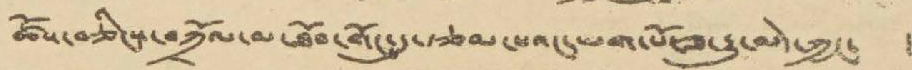ཚོས་བཅིངས་བཀྲོལ་མ་ཐོབ་གོང་དུ་རྩམ་པའང་ཡག་པོ་ཟ་རྒྱུ་མེད་ཀྱང་ །
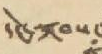དེང་སྐབས་
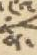གི་
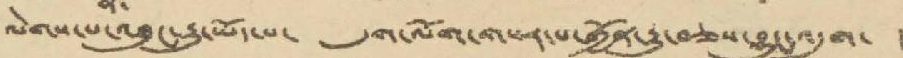ལེགས་པ་འཐུང་རྒྱུ་ཡོད་པ་ དུག་ལོག་གསར་པ་གྱོན་རྒྱུ་བཅས་བྱུང་འདུག་ །
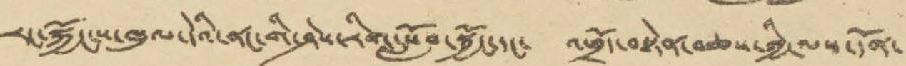རང་སྐྱོང་ས་ཁུལ་དེའི་ནང་གི་ཤེས་རིག་སློབ་སྦྱོང་དང་ འཕྲོད་བསྟེན་བཅས་ཀྱི་ལས་དོན་
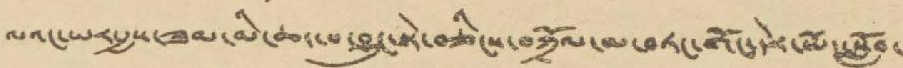ལའང་ཡར་རྒྱས་རྒྱས་ཟམ་མི་ཆ་པ་བྱུང་སྟེ་བཅིངས་བཀྲོལ་མ་བཏང་གོང་དེར་ཡོད་སློབ་
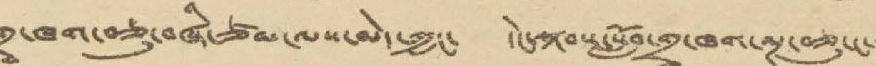གྲྭ་ཁག་བཅུ་བཞི་ཙམ་ལས་མེད་ཀྱང་ དེངས་སྐབས་སློབ་གྲྭ་ཁག་ལྔ་བཅུ་ང་་་
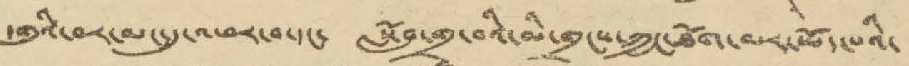དགུའི་བར་མང་དུ་འཕར་བ་དང་ སློབ་གྲྭ་བའི་མི་གྲངས་ཀྱང་ཐོག་མར་ཡོད་པའི་
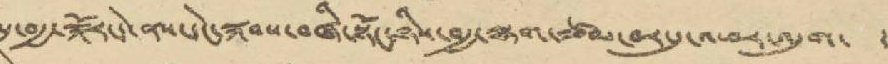ལྔ་བརྒྱ་སྐོར་དེ་ནས་དེང་སྐབས་བཞི་སྟོང་ཉིས་བརྒྱ་ལྷག་ཙམ་བར་དུ་འཕར་འདུག་ །
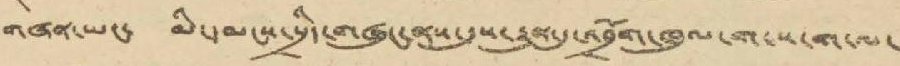གཞན་ཡང་ མི་དམངས་སྲིད་གཞུང་ནས་དུས་རྒྱུན་དུ་འབྲོག་ཁུལ་ག་ས་ག་ལ་
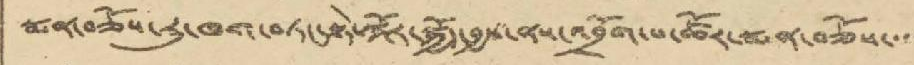སྨན་བཅོས་རུ་ཁག་བཏང་སྟེ་སྐོར་སྐྱོད་བྱས་ནས་འབྲོག་པ་ཚོར་སྨན་བཅོས་་་་
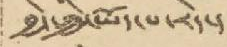བྱེད་ཀྱི་ཡོད་པ་རེད་།
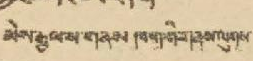མེས་རྒྱལ་ས་གནས་ཁག་གི་གནས་ལུགས་
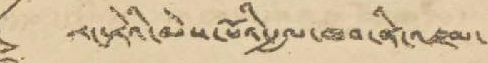རང་རེའི་མེས་པོའི་རྒྱལ་ཁབ་ནི་འཛམ་
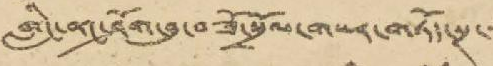གླིང་ནང་ཤོག་བུ་བཟོ་སྲོལ་གསར་གཏོད་སྔ་་་
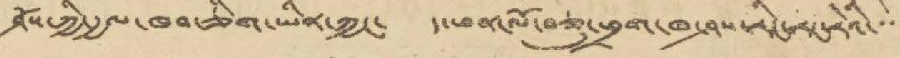ཤོས་ཀྱི་རྒྱལ་ཁབ་ཅིག་ཡིན་ཀྱང་ ད་ཕན་ལོ་བཅུ་ཕྲག་ཁ་ཤས་རིང་རང་རེའི་་་་
